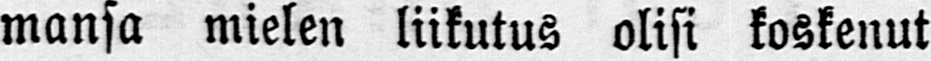mansa mielen liikutus olisi koskenut
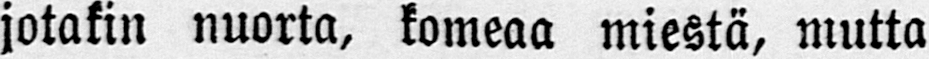jotakin nuorta, komeaa miestä, mutta
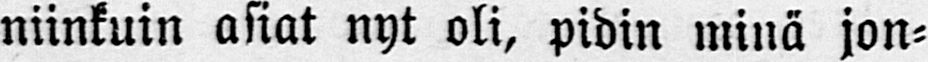niinkuin asiat nyt oli, pidin minä jon-
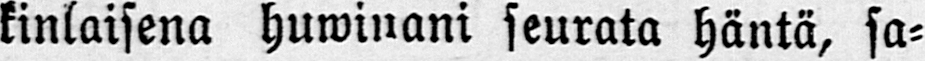kinlaisena huwinani seurata häntä, sa-
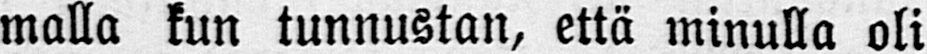malla kun tunnustan, että minulla oli
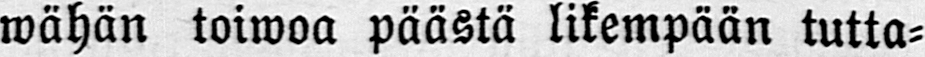wähän toiwoa päästä likempään tutta-
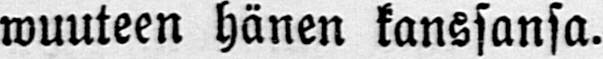wuuteen hänen kanssansa.
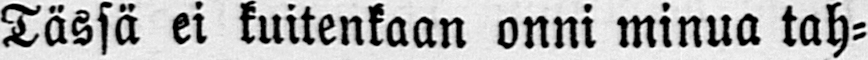Tässä ei kuitenkaan onni minua tah-
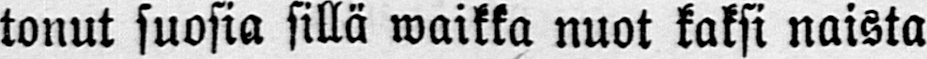tonut suosia sillä waikka nuot kaksi naista
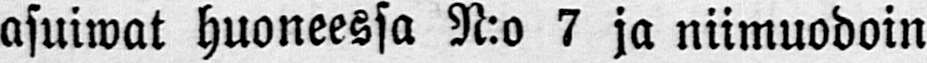astuwat huoneessa N:o 7 ja niimuodoin
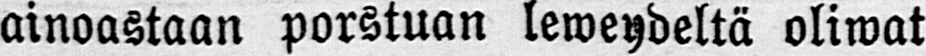ainoastaan porstuan leweydeltä oliwat
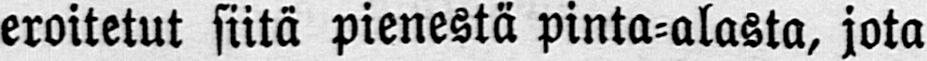eroitetut siitä pienestä pinta-alasta, jota
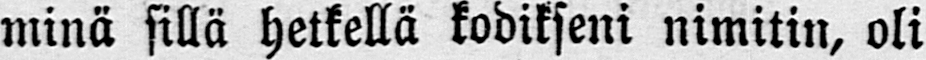minä sillä hetkellä kodikseni nimitin, oli
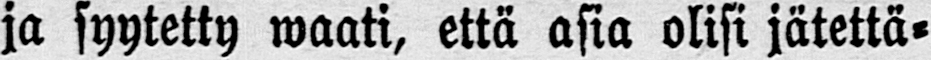ja syytetty waati, että asia olisi jätettä-
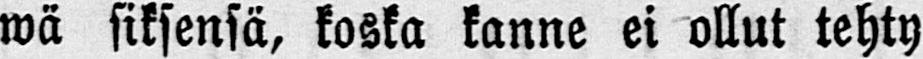wä siksensä, koska kanne ei ollut tehty
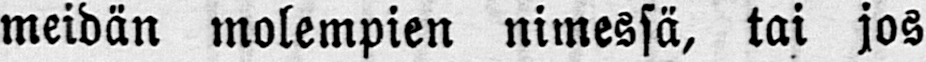meidän molempien nimessä, tai jos
